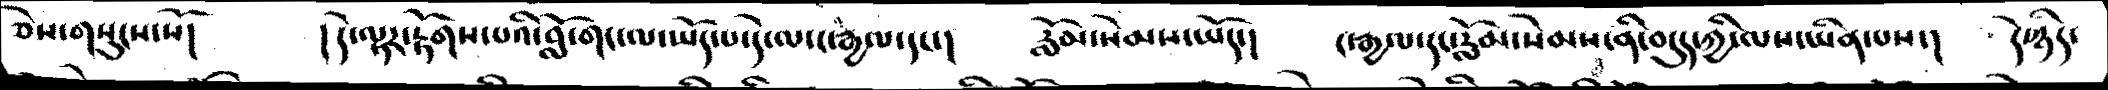ཅེས་གསུངས་སོ།   །དེ་ལྟར་རྟོགས་པའི་བློ་གང་ལ་ཡོད་པ་དེ་ལ་ང་རྒྱལ་དང་།   རློམ་སེམས་ཡོད་།   ང་རྒྱལ་དང་རློམ་སེམས་ནི་བདུད་ཀྱི་ལས་ཡིན་པས་།   དེ་ཉིད་
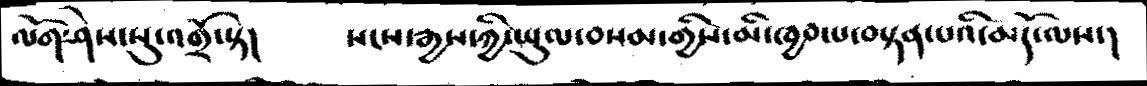ལོག་ཤེས་སུ་འགྲོ་སྟེ།    སངས་རྒྱས་ཀྱི་ཡུལ་བསམ་གྱིས་མི་ཁྱབ་པ་བསྟན་པའི་མདོ་ལས་།
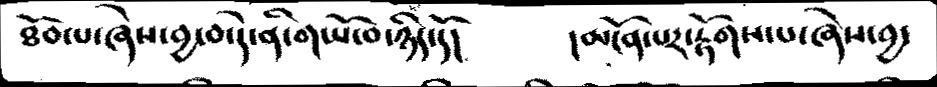ཐོབ་པ་ཞེས་བྱ་བ་དེ་ནི་གཡོ་བ་ཉིད་དོ།    །མངོན་པར་རྟོགས་པ་ཞེས་བྱ་
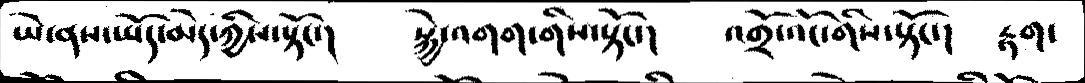ཡེ་ནས་ཡོད་མེད་ཀྱིས་སྟོང་།   སྐྱེ་འགག་གིས་སྟོང་།   འགྲོ་འོང་གིས་སྟོང་།   རྟག་
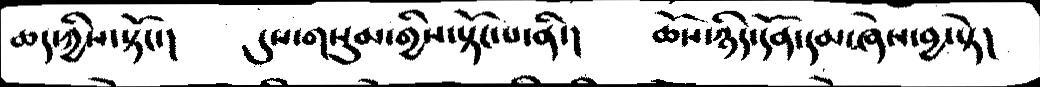ཆད་ཀྱིས་སྟོང་།    དུས་གསུམ་གྱིས་སྟོང་པ་ནི་།   ཆོས་ཉིད་དོན་དམ་ཞེས་བྱ་སྟེ།
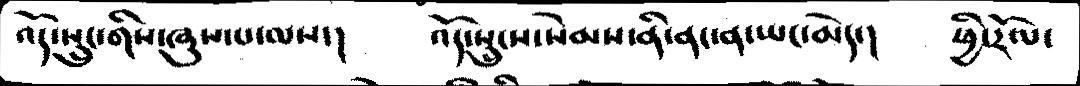འོད་སྲུང་གིས་ཞུས་པ་ལས་།    འོད་སྲུངས་སེམས་ནི་ནང་ན་ཡང་མེད་།   ཕྱི་རོལ་
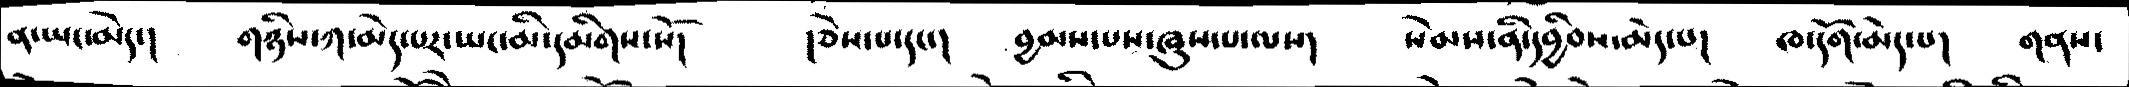ན་ཡང་མེད་།   གཉིས་ཀ་མེད་པར་ཡང་མི་དམིགས་སོ།   །ཅེས་པ་དང་།   བྱམས་པས་ཞུས་པ་ལས།   སེམས་ནི་དབྱིབས་མེད་པ།   ཁ་དོག་མེད་པ།   གནས་
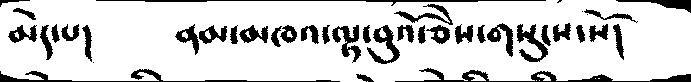མེད་པ།   ནམ་མཁའ་ལྟ་བུའོ་ཅེས་གསུངས་སོ།
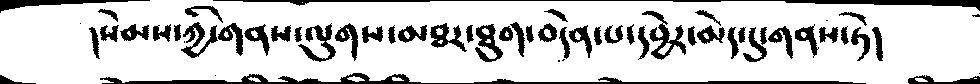།སེམསཀྱི་གནས་ལུགས་མཐར་ཐུག་བདེན་པ་དབྱེར་མེད་དུ་གནས་ཏེ།
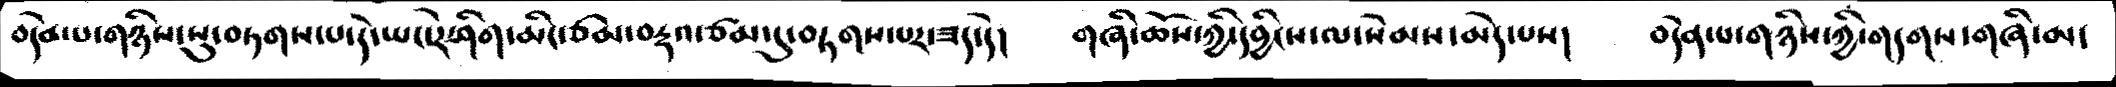བདེན་པ་གཉིས་སུ་བཏགས་པ་དེ་ཡང་རེ་ཤིག་མིང་ཙམ་བརྡའ་ཙམ་དུ་བཏགས་པར་ཟད་དེ།   གཞི་ཆོས་ཀྱི་དབྱིངས་ལ་སེམས་མེད་པས།   བདེན་པ་གཉིས་ཀྱི་གདགས་གཞི་མ་
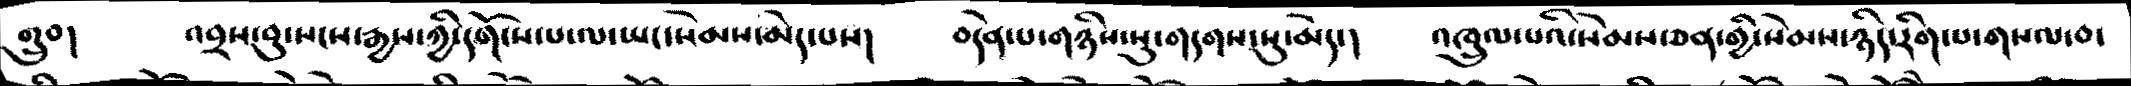གྲུབ།    འབྲས་བུ་སངས་རྒྱས་ཀྱི་དགོངས་པ་ལ་ཡང་སེམས་མེད་པས།   བདེན་པ་གཉིས་སུ་གདགས་སུ་མེད་།   འཁྲུལ་པའི་སེམས་ཅན་གྱི་སེམས་ཉིད་རིག་པ་གསལ་བ་
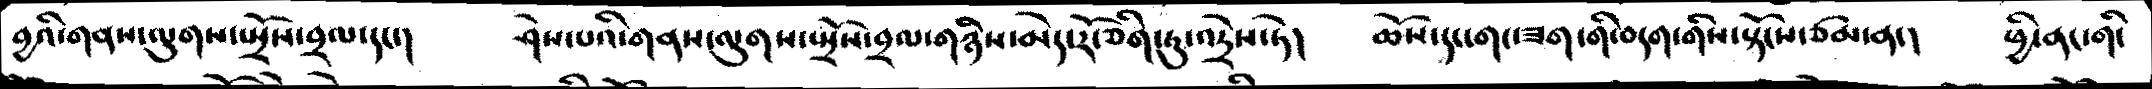བྱའི་གནས་ལུགས་སྤྲོས་བྲལ་དང་།   ཤེས་པའི་གནས་ལུགས་སྤྲོས་བྲལ་གཉིས་མེད་རོ་ཅིག་ཏུ་འདྲེས་ཏེ།   ཆོས་དང་གང་ཟག་གི་བདག་གིས་སྟོངས་ཙམ་ན་།  ཕྱི་ནང་གི་
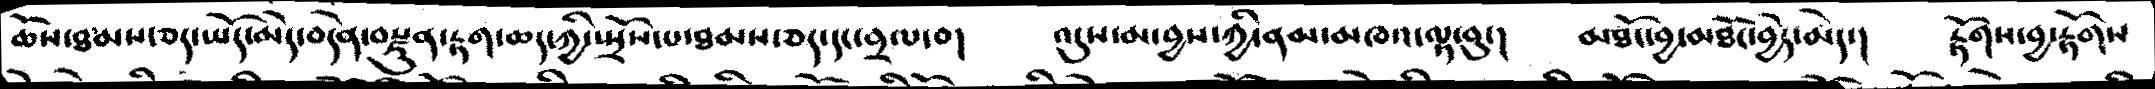ཆོས་ཐམས་ཅད་ཡོད་མེད་བདེན་བརྫུན་རྟག་ཆད་ཀྱི་སྤྲོས་པ་ཐམས་ཅད་དང་བྲལ་བ།   འདུས་མ་བྱས་ཀྱི་ནམ་མཁའ་ལྟ་བུ་།   མཐོང་བྱ་མཐོང་བྱེད་མེད་།  རྟོགས་བྱ་རྟོགས་
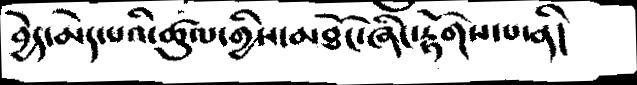བྱེད་མེད་པའི་ཚུལ་གྱིས་མཐོང་ཞིང་རྟོགས་པ་ནི།
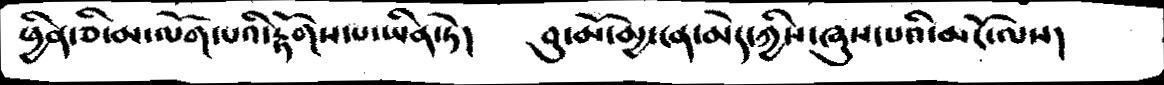ཕྱིན་ཅི་མ་ལོགས་པའི་རྟོགས་པ་ཡིན་ཏེ།    བུ་མོ་མྱ་ངན་མེད་ཀྱིས་ཞུས་པའི་མདོ་ལས།
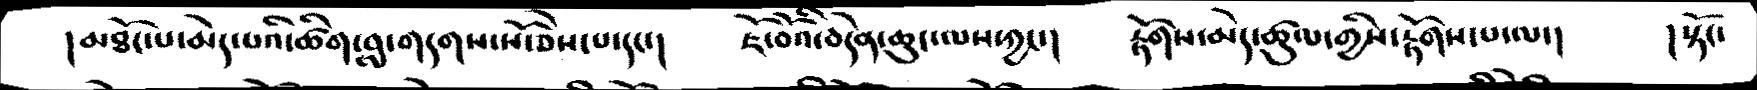།མཐོང་པ་མེད་པའི་ཚིག་བླ་གདགས་སོ་ཅེས་པ་དང་།   ཇོ་བོའི་བདེན་ཆུང་ལས་ཀྱང་།   རྟོགས་མེད་ཚུལ་གྱིས་རྟོགས་པ་ལ་།   །སྟོང་
